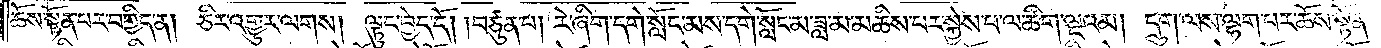ཆོས་སྟོན་པར་བགྱིད་ན། ཅིར་འགྱུར་ལགས།  ལྟུང་བྱེད་དོ། །བཙུན་པ། རེ་ཞིག་དགེ་སློང་མས་དགེ་སློང་མ་ཟླ་མ་མཆིས་པར་སྐྱེས་པ་ལ་ཚིག་ལྔའམ། དྲུག་ལས་ལྷག་པར་ཆོས་སྟོན་
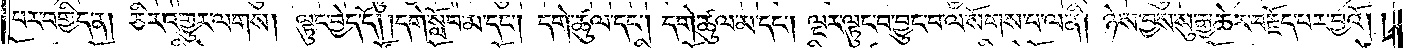པར་བགྱིད་ན། ཅིར་འགྱུར་ལགས། ལྟུང་བྱེད་དོ། །དགེ་སློབ་མ་དང༌། དགེ་ཚུལ་དང༌། དགེ་ཚུལ་མ་དང༌། ལྔར་ལྟུང་བ་བྱུང་བ་ལ་སོགས་པ་ལ་ནི། ཉེས་བྱས་སུ་རྒྱ་ཆེར་བརྗོད་པར་བྱའོ།
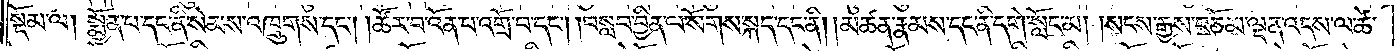སྡོམ་ལ། སྨྱོན་པ་དང་ནི་སེམས་འཁྲུགས་དང༌། །ཚོར་བ་འོན་པ་འགྲོ་བ་དང༌། །བསླབ་བྱིན་ལ་སོགས་སྐད་དང་ནི། །མཚན་རྣམས་དང་ནི་དགེ་སློང་མ། །སངས་རྒྱས་བཅོམ་ལྡན་འདས་ཚེ་
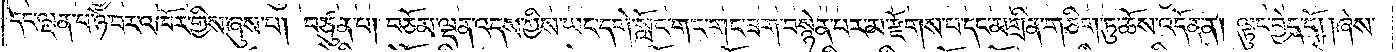དང་ལྡན་པ་ཉེ་བར་འཁོར་གྱིས་ཞུས་པ། བཙུན་པ། བཅོམ་ལྡན་འདས་ཀྱིས་ཡང་དགེ་སློང་གང་གང་ཟག་བསྙེན་པར་མ་རྫོགས་པ་དང་མགྲིན་གཅིག་ཏུ་ཆོས་འདོན་ན། ལྟུང་བྱེད་དོ། །ཞེས་
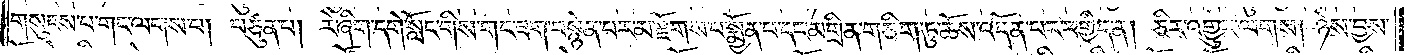གསུངས་པ་གང་ལགས་པ། བཙུན་པ། རེ་ཞིག་དགེ་སློང་གིས་གང་ཟག་བསྙེན་པར་མ་རྫོགས་པ་སྨྱོན་པ་དང་མགྲིན་གཅིག་ཏུ་ཆོས་འདོན་པར་བགྱིད་ན། ཅིར་འགྱུར་ལགས། ཉེས་བྱས་
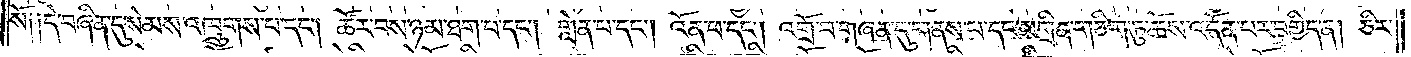སོ༑ ༑དེ་བཞིན་དུ་སེམས་འཁྲུགས་པ་དང༌། ཚོར་བས་ཉམ་ཐག་པ་དང༌། གླེན་པ་དང༌། འོན་པ་དང༌། འགྲོ་བ་གཞན་དུ་གནས་པ་དང་མགྲིན་གཅིག་ཏུ་ཆོས་འདོན་པར་བགྱིད་ན། ཅིར་
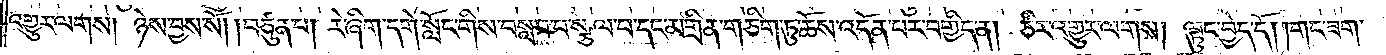འགྱུར་ལགས། ཉེས་བྱས་སོ། །བཙུན་པ། རེ་ཞིག་དགེ་སློང་གིས་བསླབ་པ་སྩལ་བ་དང་མགྲིན་གཅིག་ཏུ་ཆོས་འདོན་པར་བགྱིད་ན། ཅིར་འགྱུར་ལགས། ལྟུང་བྱེད་དོ། །གང་ཟག་
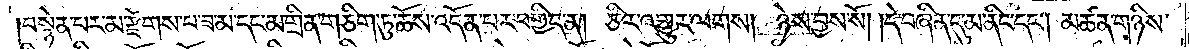བསྙེན་པར་མ་རྫོགས་པ་ཟ་མ་དང་མགྲིན་གཅིག་ཏུ་ཆོས་འདོན་པར་བགྱིད་ན། ཅིར་འགྱུར་ལགས། ཉེས་བྱས་སོ། །དེ་བཞིན་དུ་མ་ནིང་དང༌། མཚན་གཉིས་
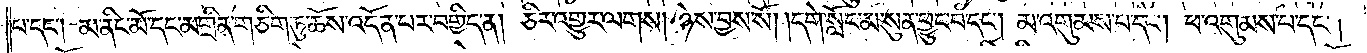པ་དང༌། མ་ནིང་མོ་དང་མགྲིན་གཅིག་ཏུ་ཆོས་འདོན་པར་བགྱིད་ན། ཅིར་འགྱུར་ལགས། ཉེས་བྱས་སོ། །དགེ་སློང་མ་སུན་ཕྱུང་བ་དང༌། མ་འགུམས་པ་དང༌། ཕ་འགུམས་པ་དང༌།
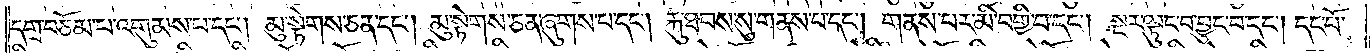དགྲ་བཅོམ་པ་འགུམས་པ་དང༌། མུ་སྟེགས་ཅན་དང༌། མུ་སྟེགས་ཅན་ཞུགས་པ་དང༌། རྐུ་ཐབས་སུ་གནས་པ་དང༌། གནས་པར་མི་བགྱི་བ་དང༌། སྔར་ལྟུང་བ་བྱུང་བ་དང༌། དང་པོ་
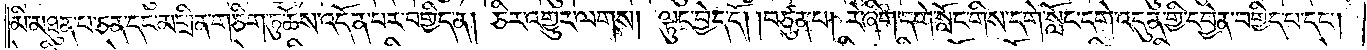མི་མཐུན་པ་ཅན་དང་མགྲིན་གཅིག་ཏུ་ཆོས་འདོན་པར་བགྱིད་ན། ཅིར་འགྱུར་ལགས། ལྟུང་བྱེད་དོ། །བཙུན་པ། རེ་ཞིག་དགེ་སློང་གིས་དགེ་སློང་དགེ་འདུན་གྱི་དབྱེན་བགྱིད་པ་དང༌།
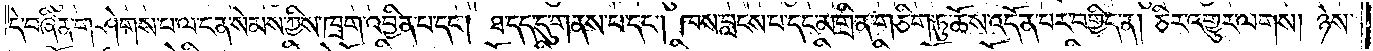དེ་བཞིན་གཤེགས་པ་ལ་ངན་སེམས་ཀྱིས་ཁྲག་འབྱིན་པ་དང༌། ཐ་དད་དུ་གནས་པ་དང༌། ཁས་བླངས་པ་དང་མགྲིན་གཅིག་ཏུ་ཆོས་འདོན་པར་བགྱིད་ན། ཅིར་འགྱུར་ལགས། ཉེས་
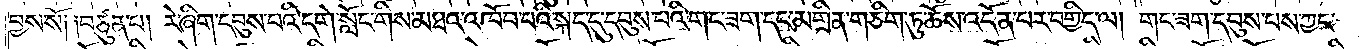བྱས་སོ༑ ༑བཙུན་པ། རེ་ཞིག་དབུས་པའི་དགེ་སློང་གིས་མཐའ་འཁོབ་པའི་སྐད་དུ་དབུས་པའི་གང་ཟག་དང་མགྲིན་གཅིག་ཏུ་ཆོས་འདོན་པར་བགྱིད་ལ། གང་ཟག་དབུས་པས་ཀྱང་
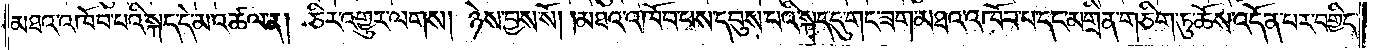མཐའ་འཁོབ་པའི་སྐད་དེ་མ་འཚལ་ན། ཅིར་འགྱུར་ལགས། ཉེས་བྱས་སོ། ཉེས་བྱས་སོ། །མཐའ་འཁོབ་པས་དབུས་པའི་སྐད་དུ་གང་ཟག་མཐའ་འཁོབ་པ་དང་མགྲིན་གཅིག་ཏུ་ཆོས་འདོན་པར་བགྱིད་
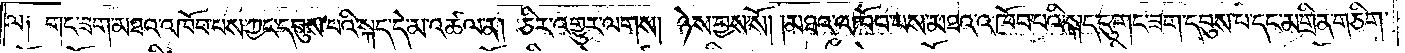ལ༑ གང་ཟག་མཐའ་འཁོབ་པས་ཀྱང་དབུས་པའི་སྐད་དེ་མ་འཚལ་ན། ཅིར་འགྱུར་ལགས། ཉེས་བྱས་སོ། །མཐའ་འཁོབ་པས་མཐའ་འཁོབ་པའི་སྐད་དུ་གང་ཟག་དབུས་པ་དང་མགྲིན་གཅིག་
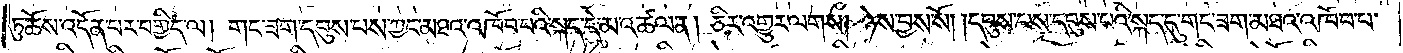ཏུ་ཆོས་འདོན་པར་བགྱིད་ལ། གང་ཟག་དབུས་པས་ཀྱང་མཐའ་འཁོབ་པའི་སྐད་དེ་མ་འཚལ་ན། ཅིར་འགྱུར་ལགས། ཉེས་བྱས་སོ། །དབུས་པས་དབུས་པའི་སྐད་དུ་གང་ཟག་མཐའ་འཁོབ་པ་
